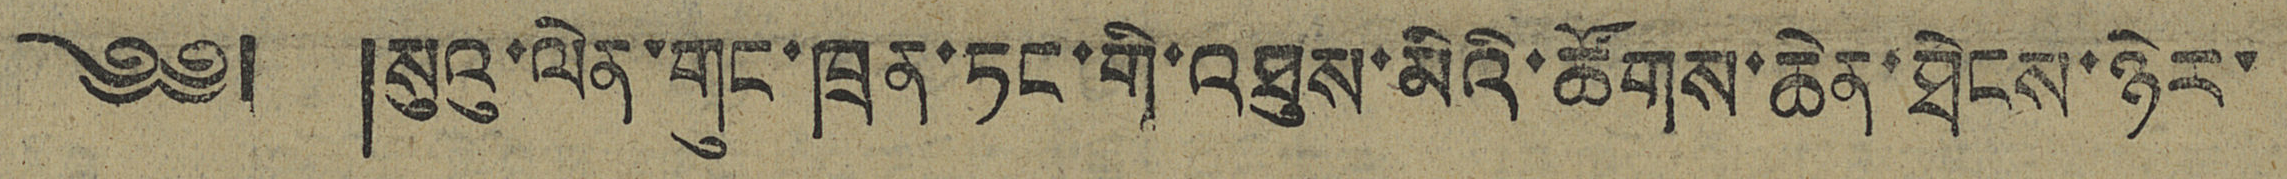༄༅། །སུའུ་ལེན་གུང་ཁྲན་ཏང་གི་འཐུས་མིའི་ཚོགས་ཆེན་ཐེངས་ཉེར་
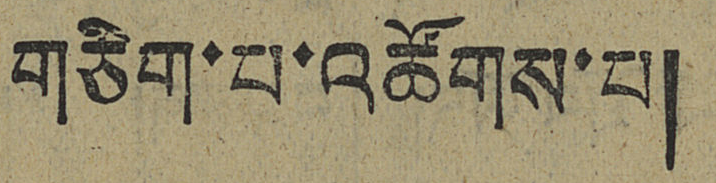གཅིག་པ་འཚོགས་པ།
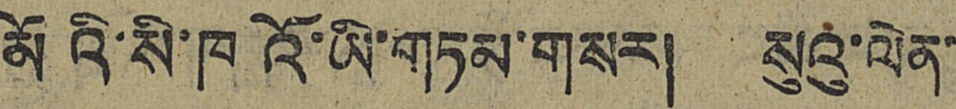མོའི་སི་ཁའོ་ཡི་གཏམ་གསར། སུའུ་ལེན་
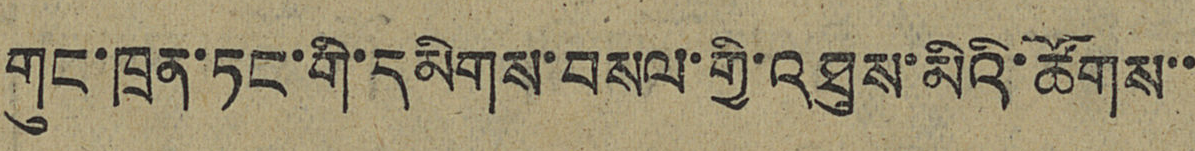གུང་ཁྲན་ཏང་གི་དམིགས་བསལ་གྱི་འཐུས་མིའི་ཚོགས་་
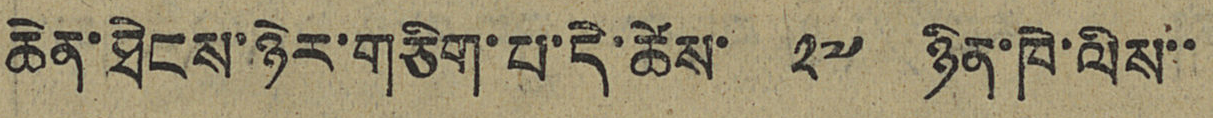ཆེན་ཐེངས་ཉེར་གཅིག་པ་དེ་ཚེས་ ༢༧ ཉིན་ཁེ་ལིས་་
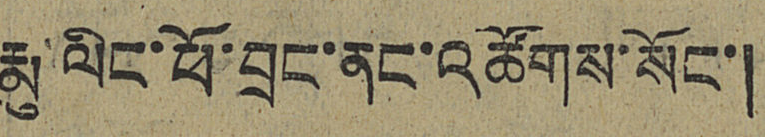རྨུ་ལིང་ཕོ་བྲང་ནང་འཚོགས་སོང་།
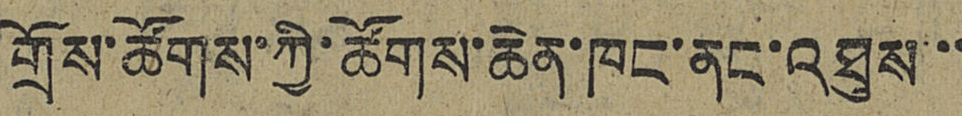གྲོས་ཚོགས་ཀྱི་ཚོགས་ཆེན་ཁང་ནང་འཐུས་་
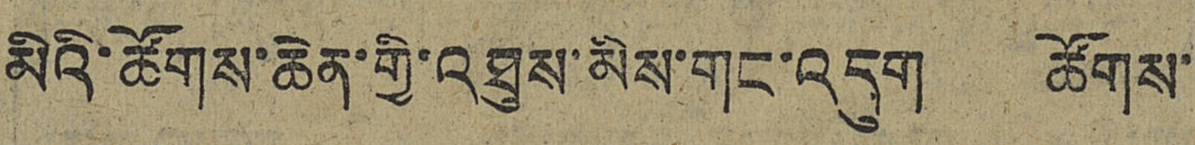མིའི་ཚོགས་ཆེན་གྱི་འཐུས་མིས་གང་འདུག ཚོགས་
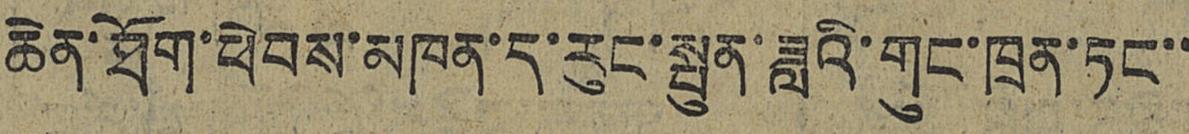ཆེན་ཐོག་ཕེབས་མཁན་ད་རུང་སྤུན་ཟླའི་གུང་ཁྲན་ཏང་་
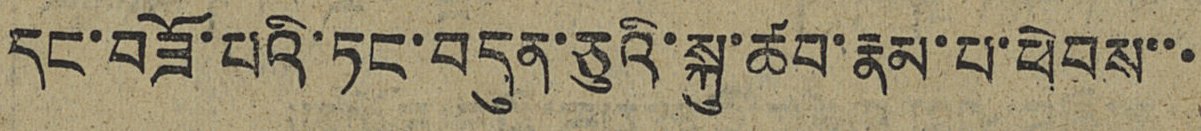དང་བཟོ་པའི་ཏང་བདུན་ཅུའི་སྐུ་ཚབ་རྣམ་པ་ཕེབས་་་
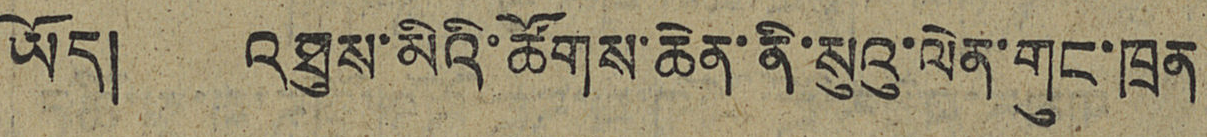ཡོད། འཐུས་མིའི་ཚོགས་ཆེན་ནི་སུའུ་ལེན་གུང་ཁྲན
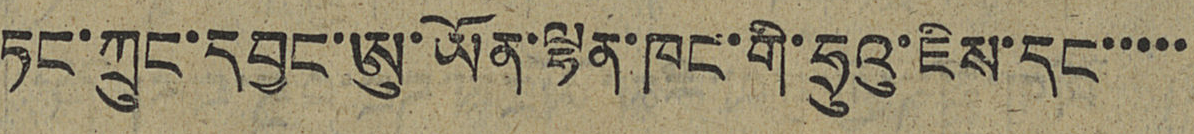ཏང་ཀྲུང་དབྱང་ཨུ་ཡོན་ལྷན་ཁང་གི་ཧྲུའུ་ཇིས་དང་་་་་
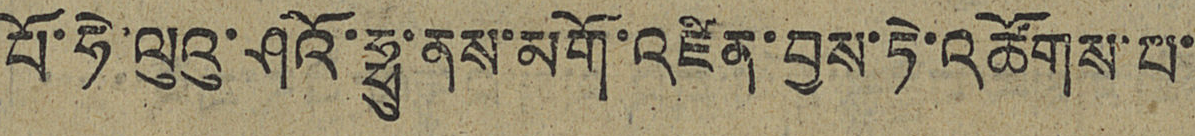པོ་ཧེ་ལུའུ་ཤའོ་ཧྥུ་ནས་མགོ་འཛིན་བྱས་ཏེ་འཚོགས་པ་
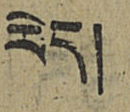རེད།
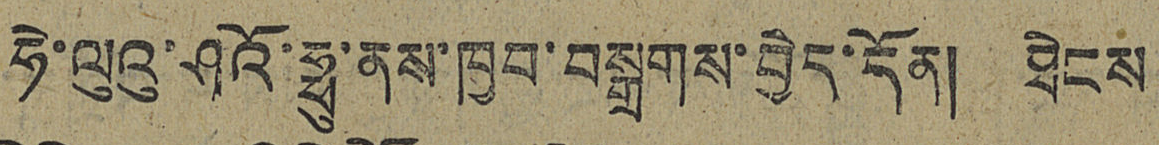ཧེ་ལུའུ་ཤའོ་ཧྥུ་ནས་ཁྱབ་བསྒྲགས་བྱེད་དོན། ཐེངས
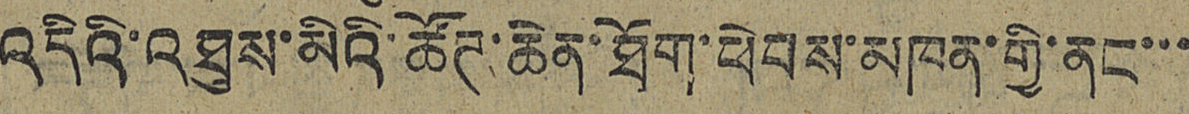འདིའི་འཐུས་མིའི་ཚོཊ་ཆེན་ཐོག་ཕེབས་མཁན་གྱི་ནང་་་
